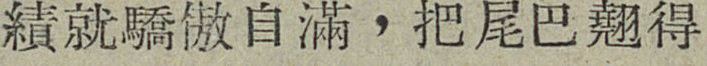績就驕傲自滿，把尾巴翘得
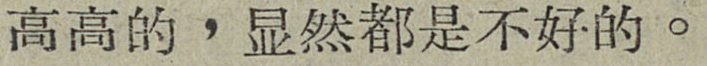高高的，显然都是不好的。
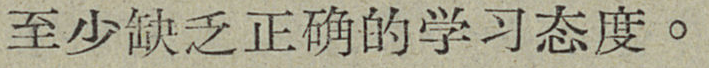至少缺乏正确的学习态度。
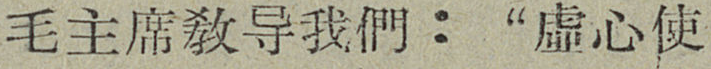毛主席敎导我們：“虛心使
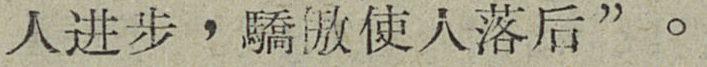人进步，驕傲使人落后”。
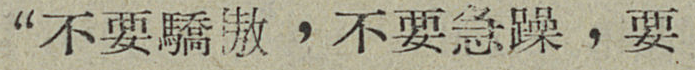“不要驕傲，不要急躁，要
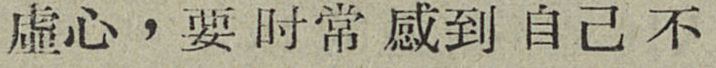虚心，要时常感到自己不
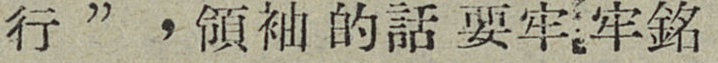行”，領袖的話要牢牢銘
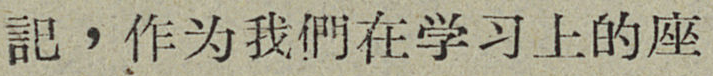記，作为我們在学习上的座
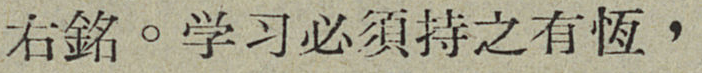右銘。学习必須持之有恒，
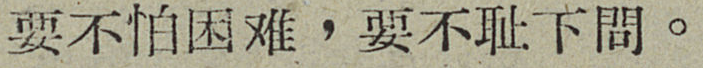要不怕困难，要不耻下問。
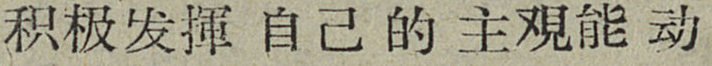积极发揮自己的主覌能动
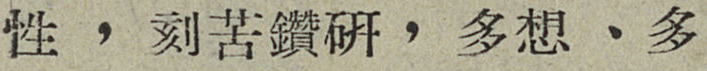性，刻苦鑽研，多想、多
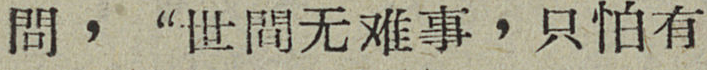問，“世間无难事，只怕有
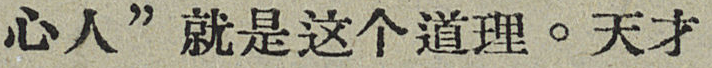心人”就是这个道理。天才
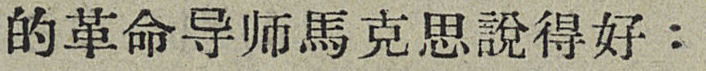的革命导师馬克思說得好：
